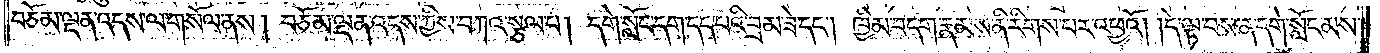བཅོམ་ལྡན་འདས་ལ་གསོལ་ནས། བཅོམ་ལྡན་འདས་ཀྱིས་བཀའ་སྩལ་པ། དགེ་སློང་དག་དད་པའི་བྲམ་ཟེ་དང༌། ཁྱིམ་བདག་རྣམས་ནི་རིགས་པར་འཕྱའོ། །དེ་ལྟ་བས་ན་དགེ་སློང་མས་
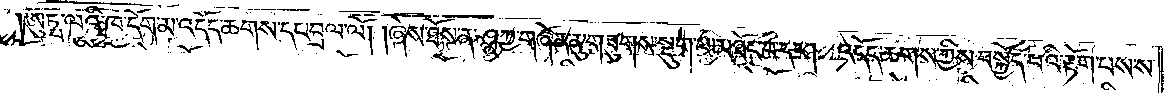ཨུཏྤ་ལའི་ཁ་དོག་མ་འདོད་ཆགས་དང་བྲལ་ལོ། །ཞེས་ཐོས་ན་ཤཱཀྱ་གཞོན་ནུ་གཟུགས་སྡུག་པ་མཐོང་བ་དང༌། འདོད་ཆགས་ཀྱིས་བསྐྱོད་བའི་རྟོག་པས་ས་
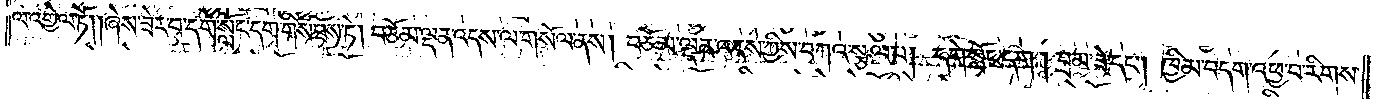ལ་འགྱེལ་ཏོ། །ཞེས་ཟེར་བ་དགེ་སློང་དག་གིས་ཐོས་ཏེ། བཅོམ་ལྡན་འདས་ལ་གསོལ་ནས། བཅོམ་ལྡན་འདས་ཀྱིས་བཀའ་སྩལ་པ། དགེ་སློང་དག །བྲམ་ཟེ་དང༌། ཁྱིམ་བདག་འཕྱ་བ་རིགས་
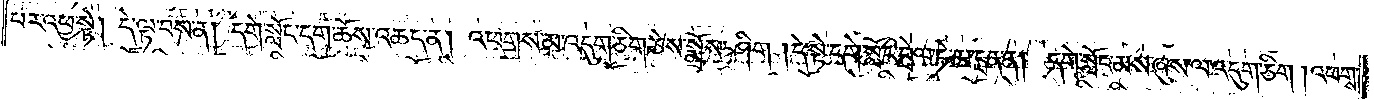པར་འཕྱ་སྟེ། དེ་ལྟ་བས་ན། དགེ་སློང་དག་ཆོས་འཆད་ན། འཕགས་མ་འདུག་ཅིག་ཅེས་སྨྲོས་ཤིག །དེ་སྟེ་དགེ་སློང་བྲེལ་ཏེ་མ་དྲན་ན། དགེ་སློང་མས་ཞུས་ལ་འདུག་ཅིག །འཕགས་
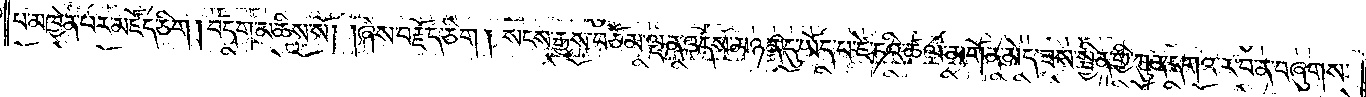པ་མཁྱེན་པར་མཛོད་ཅིག །བདག་མཆིས་སོ། །ཞེས་བརྗོད་ཅིག །སངས་རྒྱས་བཅོམ་ལྡན་འདས་མཉན་དུ་ཡོད་པ་ཛེ་ཏའི་ཚལ་མགོན་མེད་ཟས་སྦྱིན་གྱི་ཀུན་དགའ་ར་བ་ན་བཞུགས་
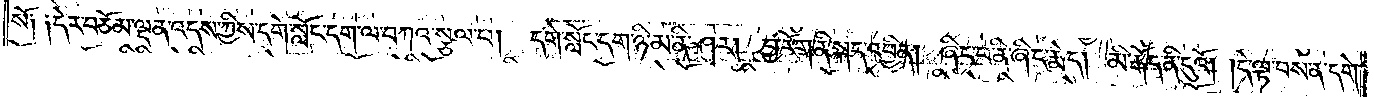སོ༑ ༑དེར་བཅོམ་ལྡན་འདས་ཀྱིས་དགེ་སློང་དག་ལ་བཀའ་སྩལ་པ། དགེ་སློང་དག་ཉི་མ་ནི་ཤར། བྱ་རོག་ནི་སྐད་འབྱིན། ཞིང་པ་ནི་ཞིང་རྨེད། མི་རྒོད་ནི་དུའོ། །དེ་ལྟ་བས་ན་དགེ་
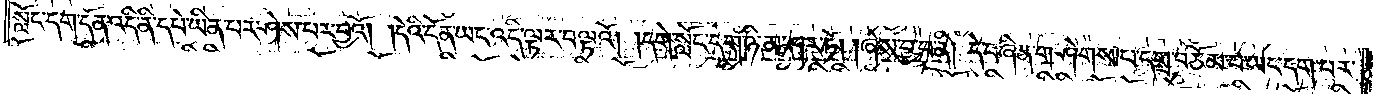སློང་དག་དོན་འདི་ནི་དཔེ་ཡིན་པར་ཤེས་པར་བྱའོ། །དེའི་དོན་ཡང་འདི་ལྟར་བལྟའོ། །དགེ་སློང་ངག་ཉི་མ་ཤར་ཏོ། །ཞེས་བྱ་བ་ནི། དེ་བཞིན་གཤེགས་པ་དགྲ་བཅོམ་པ་ཡང་དག་པར་
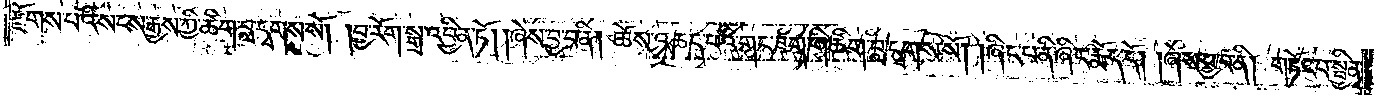རྫོགས་པའི་སངས་རྒྱས་ཀྱི་ཚིག་བླ་དྭགས་སོ། །བྱ་རོག་སྒྲ་འབྱིན་ཏོ། །ཞེས་བྱ་བ་ནི། ཆོས་འཆད་པའི་གང་ཟག་གི་ཚིག་བླ་དྭགས་སོ། །ཞིང་པ་ནི་ཞིང་རྨོད་དོ། །ཞེས་བྱ་བ་ནི། གཏོང་བ་སྦྱིན་
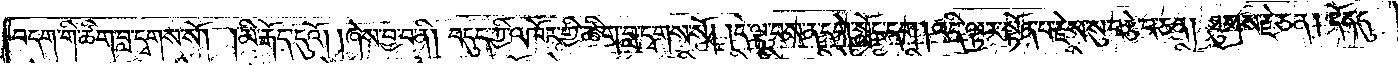བདག་གི་ཚིག་བླ་དྭགས་སོ། །མི་རྒོད་དུའོ། །ཞེས་བྱ་བ་ནི། བདུད་ཀྱི་འཁོར་གྱི་ཚིག་བླ་དྭགས་སོ། །དེ་ལྟ་བས་ན་དགེ་སློང་དག །འདི་ལྟར་སྟོན་པ་རྗེས་སུ་བརྩེ་བ་ཅན། ཐུགས་རྗེ་ཅན། དོན་དུ་
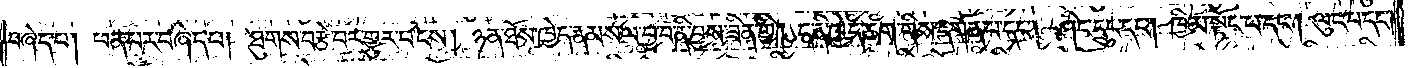བཞེད་པ། ཕན་པར་བཞེད་པ། ཐུགས་བརྩེ་བར་གྱུར་པ་ངས། ཉན་ཐོས་ཁྱེད་རྣམས་ལ་བྱ་བ་ནི་བྱས་ཟིན་གྱི། ད་ནི་ཁྱེད་ཅག་གིས་དགོན་པ་དང༌། ཤིང་དྲུང་དང༌། ཁྱིམ་སྟོང་པ་དང༌། ལུང་པ་དང༌།
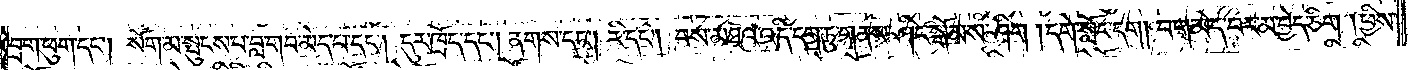བྲག་ཕུག་དང༌། སོག་མ་སྤུངས་པ་བླ་གབ་མེད་པ་དང༌། དུར་ཁྲོད་དང༌། ནགས་དང༌། རི་དང༌། བས་མཐའ་འདི་དག་ཏུ་གནས་ཤིང་སྒོམས་ཤིག །དགེ་སློང་དག །བག་མེད་པར་མ་བྱེད་ཅིག །ཕྱིས་
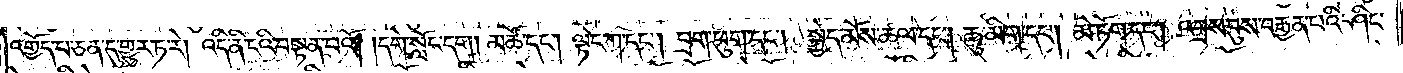འགྱོད་པ་ཅན་དུ་གྱུར་ཏ་རེ། འདི་ནི་ངའི་བསྟན་པའོ། །དགེ་སློང་དག །མཚོ་དང༌། ལྟེང་ཀ་དང༌། བྲག་ཕུག་དང༌། སྐྱེད་མོས་ཚལ་དང༌། ཆུ་མིག་དང༌། མེ་ཏོག་དང༌། འབྲས་བུས་བརྒྱན་པའི་ཤིང་
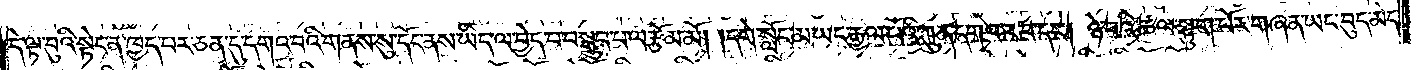དེ་ལྟ་བུའི་སྟེང་ན་ཁྱད་པར་ཅན་དུ་དགའ་བའི་གནས་སུ་དོང་ནས་ཡིད་ལ་བྱེད་པ་བསྒྲུབ་པ་ལ་རྩོམ་མོ། །དགེ་སློང་མ་ཡང་རྒྱལ་པོའི་ཀུན་དགའ་ར་བ་དང༌། ཉེ་བའི་ཚལ་སྟུག་པོར་གཞན་ཡང་བུད་མེད་
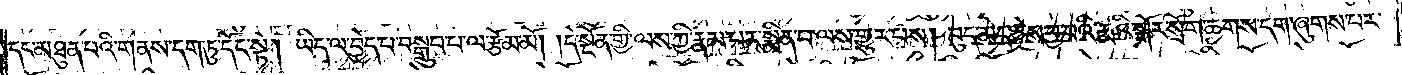དང་མཐུན་པའི་གནས་དག་ཏུ་དོང་སྟེ། ཡིད་ལ་བྱེད་པ་བསྒྲུབ་པ་ལ་རྩོམ་མོ། །དེ་སྔོན་གྱི་ལས་ཀྱི་རྣམ་པར་སྨིན་པ་ལས་གྱུར་པས། བུད་མེད་ཅེས་བྱ་བའི་རྨའི་སྒོར་སྲོག་ཆགས་དག་ཞུགས་པར་
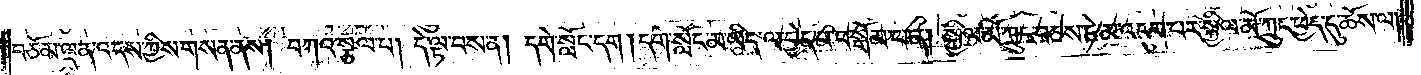བཅོམ་ལྡན་འདས་ཀྱིས་གསན་ནས། བཀའ་སྩལ་པ། དེ་ལྟ་བས་ན། དགེ་སློང་དག །དགེ་སློང་མ་ཡིད་ལ་བྱེད་པ་བསྒོམ་པ་ན། སྐྱིལ་མོ་ཀྲུང་བཅས་ཏེ་མ་འདུག་པར་སྐྱིལ་མོ་ཀྲུང་ཕྱེད་དུ་ཆོས་ལ།
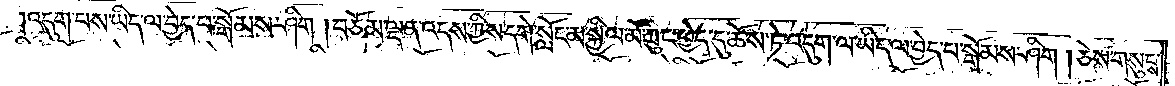འདུག་པས་ཡིད་ལ་བྱེད་པ་སྒོམས་ཤིག །བཅོམ་ལྡན་འདས་ཀྱིས་དགེ་སློང་མ་སྐྱིལ་མོ་ཀྲུང་ཕྱེད་དུ་ཆོས་ཏེ་འདུག་ལ་ཡིད་ལ་བྱེད་པ་སྒོམས་ཤིག །ཅེས་གསུངས་
